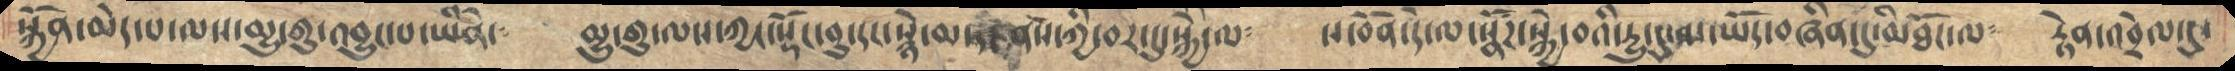སྐྱོན་མེད་པ་ལས་མྱུ་གུ་འབྱུང་བ་ཡིནེ་༴     མྱུ་གུ་ལས་ཀྱང་སྡོང་བུ་དང་སྙེ་མ་དང་ནས་ཀྱི་བར་དུ་སྐྱེ་ལ༴    ས་བོན་དེ་ལ་སྣཚོཌ་སྐྱེ་བའི་དྱུ་དུ་མ་ཡོད་བཞིན་དུ་མིཐོང་ལ༴   རྟེན་འབྲེལ་དུ་
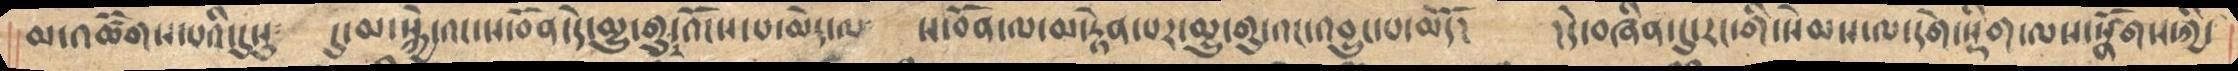མ་འཚོགས་པའི་དུསུ༴   དུ་མ་སྐྱེ་འང་ས་བོན་དེ་མྱུ་གུར་འོངས་པ་མེད་ལ༴  ས་བོན་ལ་མ་རྟེན་པར་མྱུ་གུ་འང་འབྱུང་པ་མེདོ།  །དེ་བཞིན་དུ་རང་གི་སེམས་ལ་དགེ་སྡིག་ལས་སྣཚོགས་ཀྱི་
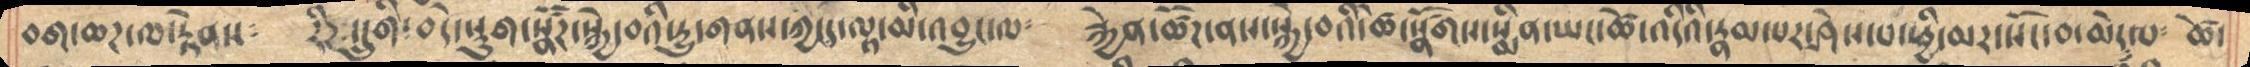བག་ཆཌ་ལ་རྟེནས༴   རིཌ་དྲུགི་བདེ་སྡུག་སྣཚོཌ་སྐྱེ་བའི་དྱུ་གནས་ཀྱི་ད་ལྟ་མི་འབྱུང་ལ༴   རྐྱེན་ཚོཌ་ནས་སྐྱེ་བའི་ཚེ་སྣཚོགས་སྨིན་ཡང་ཚེ་འདིའི་རྣམ་པར་ཤེས་པ་ཕྱི་མར་སོང་བ་མེད་པ༴  ཚེ་
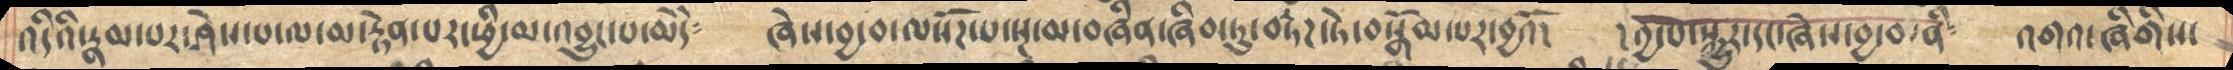འདིའི་རྣམ་པར་ཤེས་པ་ལ་མ་རྟེན་པར་ཕྱི་མ་འབྱུང་བ་མེདེ༴    ཞེས་བྱ་བ་ལསོཌ་པ་སྔ་མ་བཞིན་ཞིབ་ཏུ་བརྟཌ་ཏེ་བསྒོམ་པར་བྱའོ།     །༢་པ་སྐྱུར་དང་ཞེས་བྱ་བ་ནི༴   འགའ་ཞིགིས་
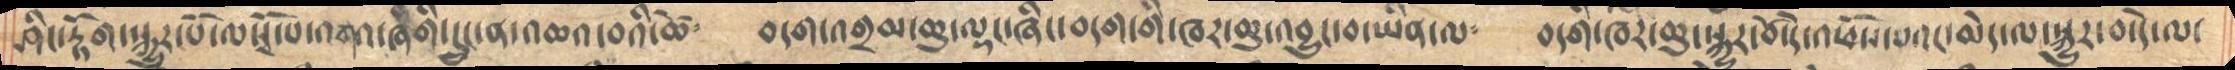ཤིང་རྟོག་སྐྱུར་པོ་ལ་ལསྭོ་པ་འགའ་ཞིགི་དྲུང་ན་འཆའ་བའི་ཚེ༴   བདག་འགྲམ་ཆུ་ལྡང་ཞིང་བདག་གི་ཁར་ཆུ་འབྱུང་བ་ཡིན་ལ༴  བདགི་ཁར་ཆུ་སྐྱུར་བོ་དེ་འཕོས་པའང་མེད་ལ་སྐྱུར་བ་དེ་ལ་
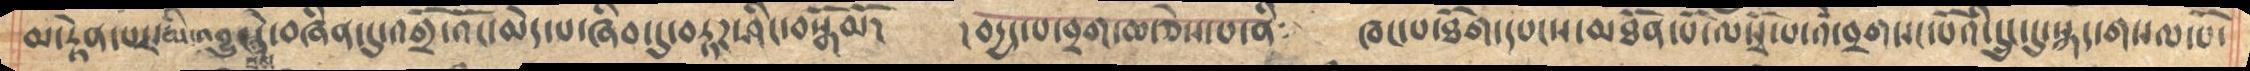མ་རྟེན་པར་མི་འབྱུང་བས་དེ་བཞིན་དུ་འགྲོ་འོང་མེད་པ་ཞིབ་དུ་བརྟཌ་ཤིང་བསྒོམོ།     །བདྱད་པ་བྲག་ཆ་ཅེས་པ་ནི༴  ཁང་པ་ཐོག་དཔངས་མཐོན་པོ་ལསྭོ་པ་འཾ་བྲགསང་པོའི་དྲུང་དུ་སྐད་གསལ་པོ་
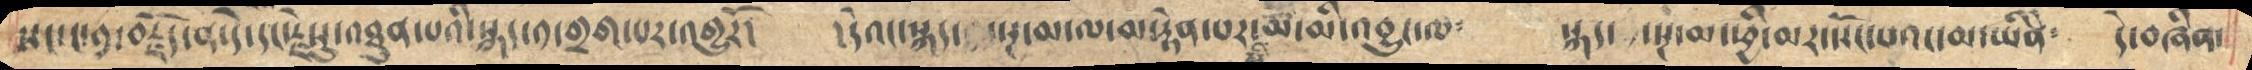སང་དང་༡་བརྗོད་ན་དེ་དང་རྗེསུ་འཐུན་པའི་སྐད་༡་གྲག་པར་འགྱུརོ།   །དེའང་སྐད་ སྔ་མ་ལ་མ་རྟེན་པར་ཆོ་མི་འབྱུང་ལ༴  སྐད་སྔ་མ་ཕྱི་མར་སོང་པའང་མ་ཡིནེ༴  དེ་བཞིན་
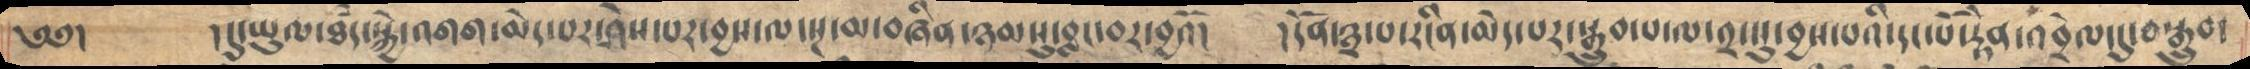༄༅།   ། དུ་ཡུལ་ཐམད་སྐྱེ་འགག་མེད་པར་ཤེས་པར་བྱས་ལ་སྔ་མ་བཞིན་ཉམསུ་བླང་བར་བྱའོ།   །དོན་༣་པ་རངིན་མེད་པར་སྒྲུབ་པ་ལ་༢་སུ་བྱས་པའི་དང་པོ་རྟེན་འབྲེལ་དུ་བསྒྲུབ་
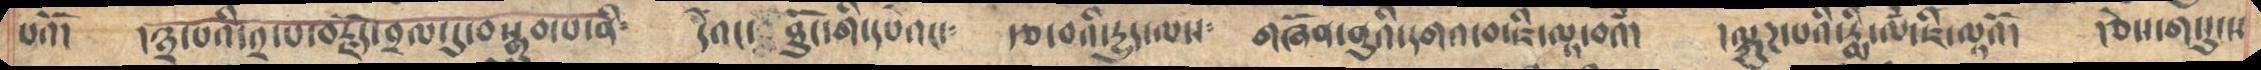པའོ།    །༣་པའི་༢་པ་བརྗོད་བྲལ་དུ་བསྒྲུབ་པ་ནི༴    དེའང་ཐུན་མོང་གི་དཔེའང་༴    རྩ་བའི་དྱུད་ལས༴     གཞོན་ནུའི་དགའ་བ་ཇི་ལྟ་བའཾ།   །ལྐུཌ་པའི་རྨི་ལཾ་ཇི་ལྟའོ།   །ཅེས་གསུངས
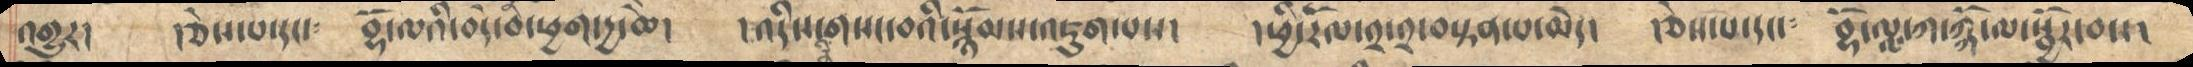འགྱུར།  རྩེས་པ་དང༴  བྷོ་ལའི་བདེ་བི་ཕྱག་དྱ་ཆེ།  །འདིས་ནི་གསང་བའི་སྙོམས་འཇུག་པ་།  །ཕྱི་རོལ་༢་༢་བསྟན་པ་མེད།  རྩེས་པ་དང་༴  བྷོ་ལྪ་ཀ་ལ་ཀྐོ་ལ་སྦྱོར་བས།
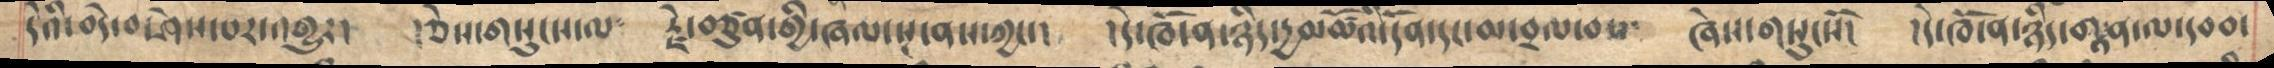དེའི་བདེ་བ་ཤེས་པར་འགྱུར།   །ཅེས་གསུངས་ལ༴   རྗེ་བཙུན་གྱི་ཞལ་སྔ་ནས་ཀྱང་།    །དེ་ཁོ་ན་ཉིད་དྱ་མཚོའི་དོན་དང་མ་བྲལ་བས༴   ཞེས་གསུངསོ།   །དེ་ཁོ་ན་ཉིད་གཏན་ལ་དབབ་
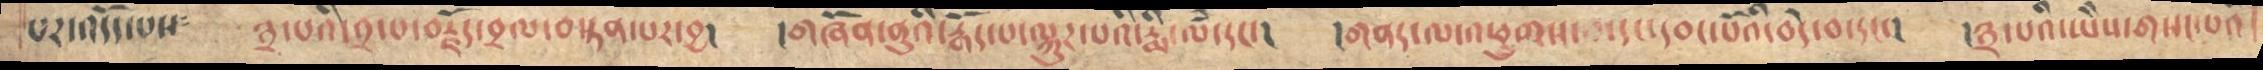པར་འདོད་པས༴    ༣་པའི་༢་པ་བརྗོད་བྲལ་བསྟན་པར་བྱ།    །གཞོན་ནུའི་རྒོད་པ་ལྐུཌ་པའི་རྨི་ལཾ་དང་།    །གནད་ལ་འཕྱུགས་ དང་དབང་པོའི་བདེ་བ་དང་།   །༣་པའི་ཡཻས་གསང་པའི་
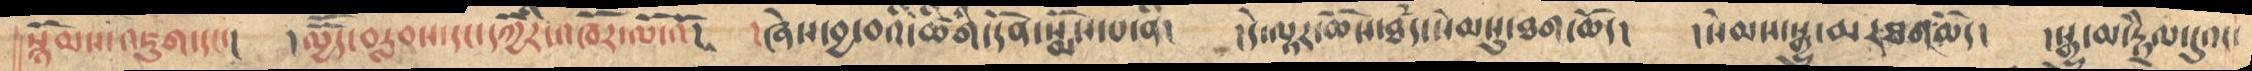སྙོམས་འཇུག་དང་།    །ལྱཽད་བརླབས་དང་དཀྱིོར་འཁོར་ལོ་འོ།    །ཞེས་བྱ་བའི་ཚིགི་དོན་སྨོས་པ་ནི།   །དེ་ལྡར་ཆོས་ཐམད་སེམསུ་ཐག་ཆོད།   །སེམས་སྒྱུ་མར་ཐགཆོད།   །སྒྱུ་མ་རྟྲཻལ་དུའང་
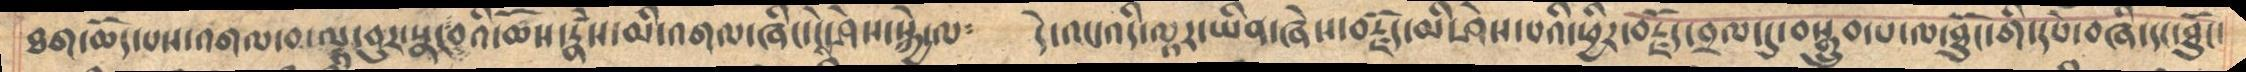ཐག་ཆོད་པས་འགལ་བ་ལྟ་བུར་སྣང་བའི་ཆོས་རྣཾས་མི་འགལ་ཞིང་ངེས་ཤེས་སྐྱེ་ལ༴  དེ་འང་འདི་ལྟར་ཡིན་ཞེས་བརྗོད་མི་ཤེས་པའི་ཕྱིར་བརྗོད་བྲལ་དུ་བསྒྲུབ་པ་ལ་ཐོུང་གི་དཔེ་བཞི་དང་ཐོུང་
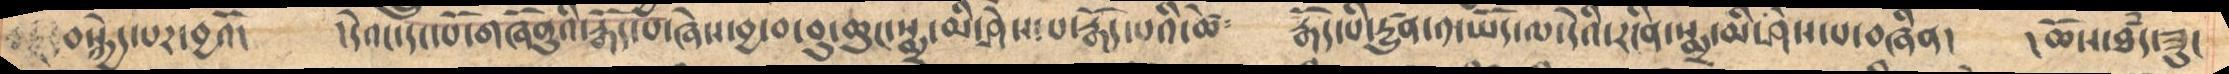བསྐྱེད་པར་བྱའོ།     །དེའང་དང་པོ་གཞོནུའི་རྒོད་པ་ཞེས་བྱ་བ་བུ་ཆུང་སྨྲ་མི་ཤེས་པ་རྒོད་པའི་ཚེ༴   རྒོད་པའི་དྱུན་༡་ཡོད་ལ་དེའི་རངིན་སྨྲ་མི་ཤེས་པ་བཞིན།    །ཆོས་ཐམད་ཟུང
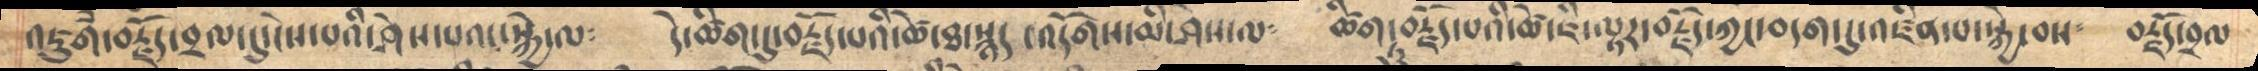འཇུག་བརྗོད་བྲལ་དུ་ངེས་པའི་ཤེས་པའང་སྐྱེ་ལ༴       དེ་ཚིག་དུ་བརྗོད་པའི་ཚེ་ཐ་སྙད་འདོགས་མི་ཤེས་ལ༴   ཚིག་ཏུ་བརྗོད་པའི་ཚེ་ཇི་ལྟར་བརྗོད་ཀྱང་བདག་དུ་འཛིན་པ་སྐྱེ་བས༴   བརྗོད་བྲལ
